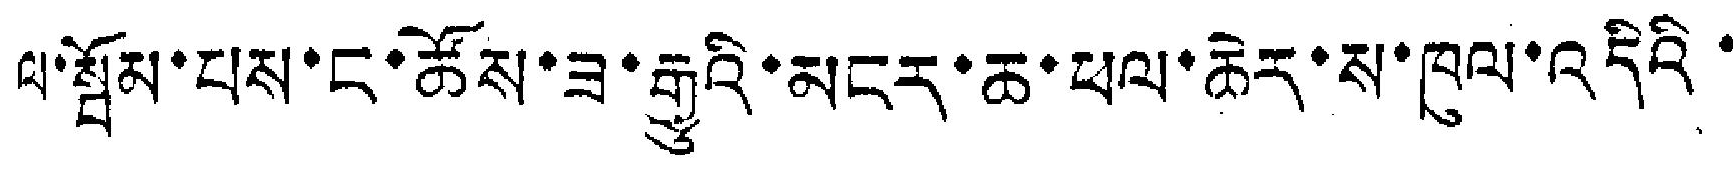ལ་སྦོམ་པས་ང་ཚོས་ཟ་རྒྱུའི་མངར་ཆ་ཕལ་ཆེར་ས་ཁུལ་འདིའི་
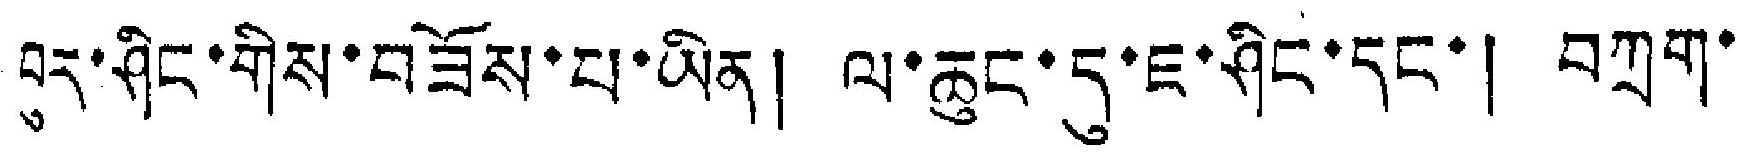བུར་ཤིང་གིས་བཟོས་པ་ཡིན། ལ་ཆུང་དུ་ཇ་ཤིང་དང་། བཀྲག་
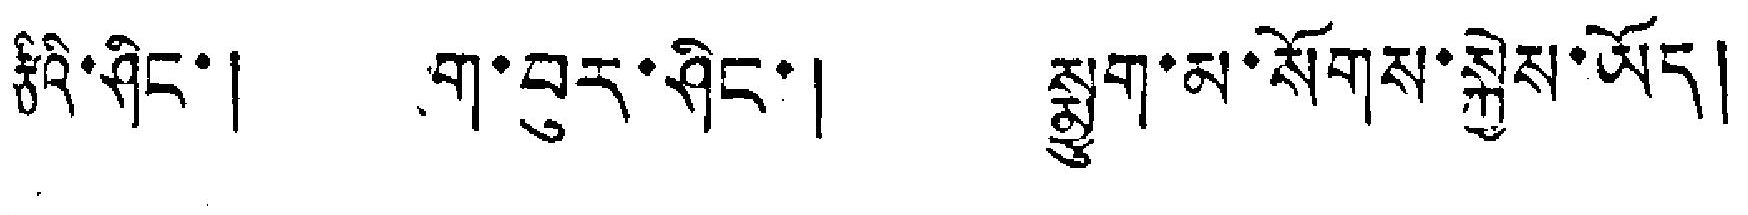རྩིའི་ཤིང་། ག་བུར་ཤིང་། སྨྱུག་མ་སོགས་སྐྱེས་ཡོད།
